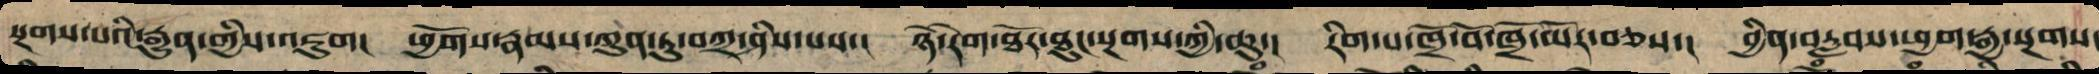སྔགས་པའི་རྒྱུན་གྱིས་འཇུག། ཕྱོགས་རྣམས་ཀུན་ཏུ་བཀྲ་ཤིས་པ་། ཉེ་རེག་ཐོར་འཐུང་སྔགས་ཀྱི་ཆུ་། རིག་པ་ཁྲོ་བོ་ཁྲོ་མོར་བཅས་། བྱིན་བརླབས་ཕྱག་རྒྱ་སྔགས་
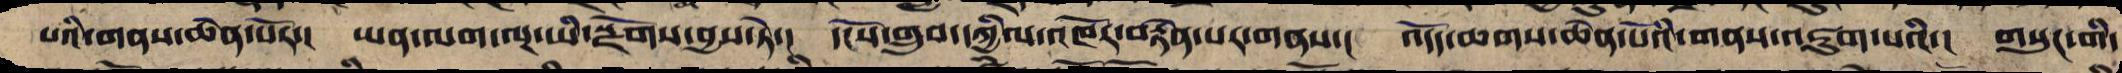པའི་གནས་ཆེན་པོར་། ཡན་ལག་ལྔ་ཡིས་སྫོགས་བྱས་ཏེ་། དངོས་གྲུབ་དཀྱིལ་འཁོར་བརྟེན་པར་གནས་། འདོད་ཆགས་ཆེན་པོའི་གནས་འཇུག་པའི་། གསུང་གི་
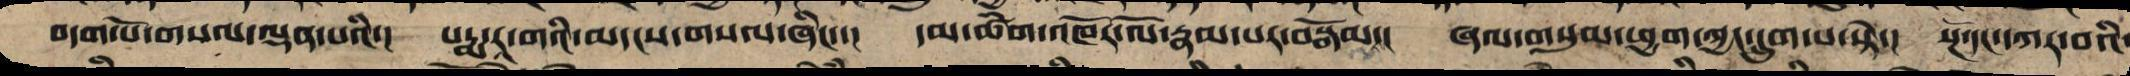བདག་པོ་གསལ་ལྡན་པའི་། པདྨ་རཱ་གའི་མདངས་གསལ་ཞིང་་། དམ་ཚིག་འཁོར་ལོ་རྣམ་པར་བསྒོམ་། ཞལ་གསུམ་ཕྱག་ཀྱང་དྲུག་པ་སྟེ་། སྔོ་དང་དཀར་བའི་
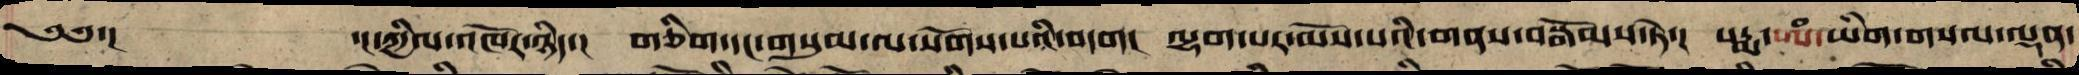༄༅་། དཀྱིལ་འཁོར་ཉིད་། གཅིག་དང་གསུམ་ལ་སོགས་པའི་བདག། ལྷག་པར་མོས་པའི་གནས་བསྒོམས་ཏེ་། པདྨ་ཨཾ་ཡིག་གཔལ་ལྡན་
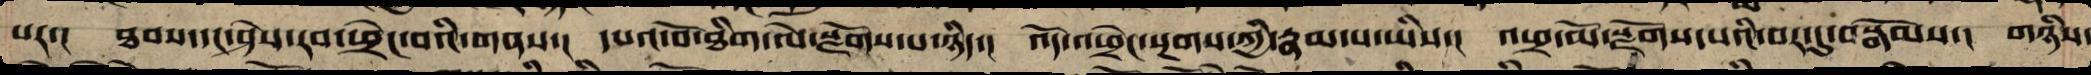པར་། ཐབས་དང་ཤེས་རབ་ཕྲེང་བའི་གནས་། དཔའ་བོ་ཐིག་ལེ་སྫོགས་པ་ཉིད་། འོད་འཕྲེང་སྔགས་ཀྱི་རྣམ་པ་ཡིས་། ཕྲ་མོ་སྫོགས་པའི་བར་དུ་བསྒོམ་། གཉིས་
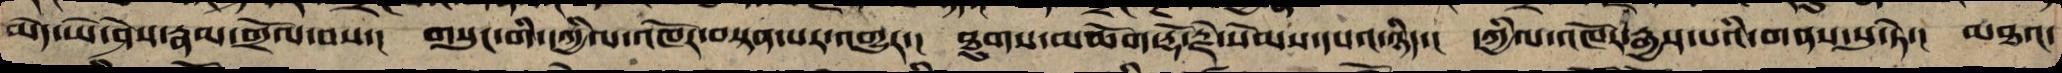མེད་ཡེ་ཤེས་རྣམ་གྲོལ་བས་། གསུང་གི་དཀྱིལ་འཁོར་བསྟན་པར་འགྱུར་། ཐུགས་མཆོག་ལྡན་རྡོ་རྗེ་སེམས་དཔའ་ཉིད་། དཀྱིལ་འཁོར་རྒྱས་པའི་གནས་སུ་སྟེ་། མཐའ་
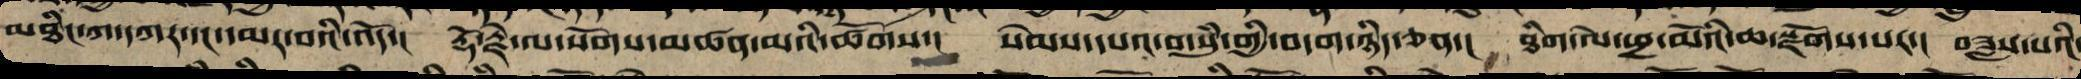མཐིང་ག་དཀར་དང་དམར་བའི་འོད་། རྡོ་རྗེ་ལ་སོགས་མཚན་མའི་ཚོགས་། སེམས་དཔའ་གསུཾ་གྱི་བདག་ཉིད་ཅན་། ཐིག་ལེ་ཕྲ་མོའི་ཆ་སྫོགས་པར་། བཟླས་པའི་
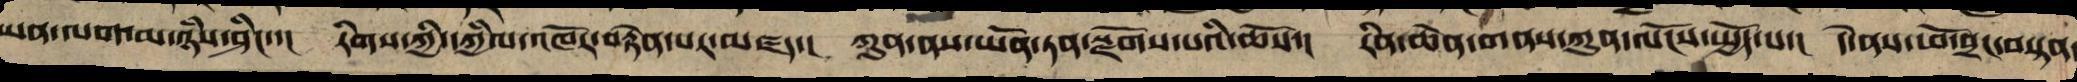ཡན་ལག་མ་ཉཾས་ཤིང་་། རིགས་ཀྱི་དཀྱིལ་འཁོར་བརྟེན་པར་མཛད་། ཀུན་ནས་ཡོན་ཏན་སྫོགས་པའི་ཆོས་། རིན་ཆེན་གནས་ཀུན་ལོངས་སྤྱོད་པ་། དེ་ནས་ཕོ་བྲང་བསྟན་
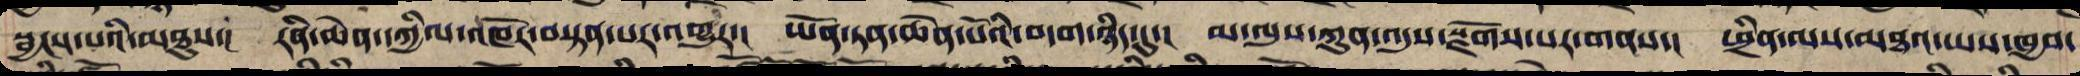སྦྱངས་པའི་མཐུས་། རིན་ཆེན་དཀྱིལ་འཁོར་བསྟན་པར་འགྱུར་། ཡོན་ཏན་ཆེན་པོའི་བདག་ཉིད་དུ་། མ་ལུས་ཀུན་འདུས་སྫོགས་པར་གནས་། ཕྲིན་ལས་མཐའ་ཡས་ཁྱབ་
